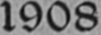1908
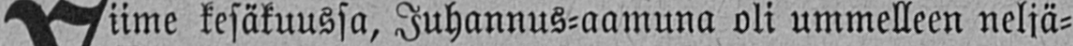Viime kesäkuussa, Juhannus-aamuna oli ummelleen neljä-
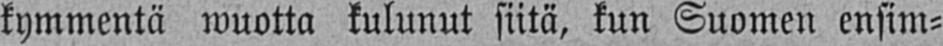kymmentä wuotta kulunut siitä, kun Suomen ensim-
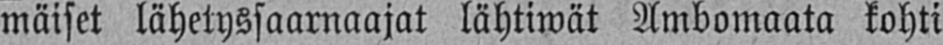mäiset lähetyssaarnaajat lähtiwät Ambomaata kohti
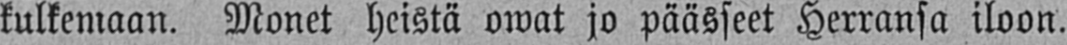kulkemaan. Monet heistä owat jo päässeet Herransa iloon.
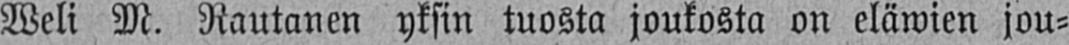Weli M. Rautanen yksin tuosta joukosta on eläwien jou-
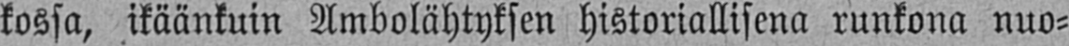kossa, ikäänkuin Ambolähtyksen historiallisena runkona nuo-
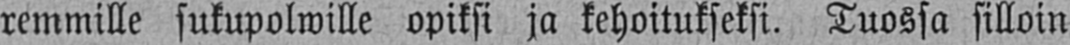remmille sukupolwille opiksi ja kehoitukseksi. Tuossa silloin
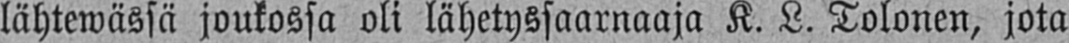lähtewässä joukossa oli lähetyssaarnaaja K. L. Tolonen, jota
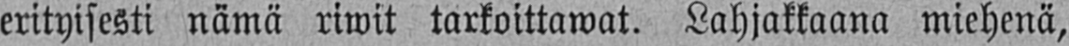erityisesti nämä riwit tarkoittawat. Lahjakkaana miehenä,
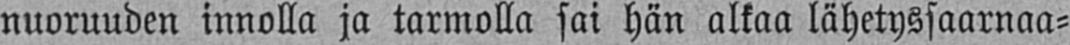nuoruuden innolla ja tarmolla sai hän alkaa lähetyssaarnaa-
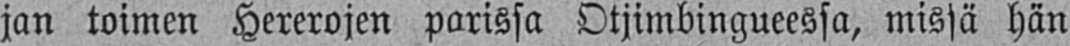jan toimen Hererojen parissa Otjimbingueessa, missä hän
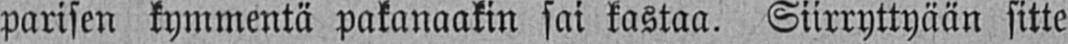parisen kymmentä pakanaakin sai kastaa. Siirryttyään sitte
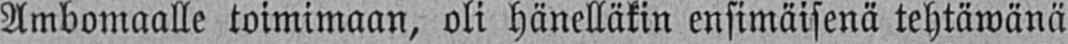Ambomaalle toimimaan, oli hänelläkin ensimäisenä tehtäwänä
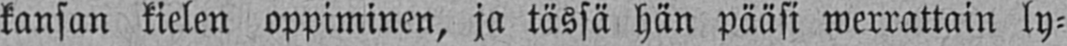kansan kielen oppiminen, ja tässä hän pääsi werrattain ly-
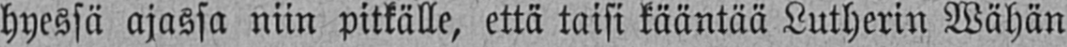hyessä ajassa niin pitkälle, että taisi kääntää Lutherin Wähän
